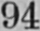94
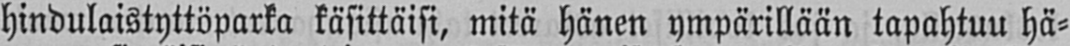hindulaistyttöparka käsittäisi, mitä hänen ympärillään tapahtuu hä-
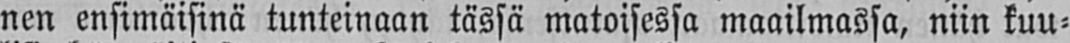nen ensimäisinä tunteinaan tässä matoisessa maailmassa, niin kuu-
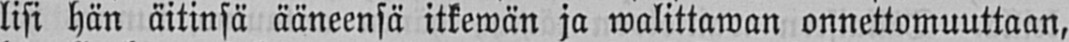lisi hän äitinsä ääneensä itkewän ja walittawan onnettomuuttaan,
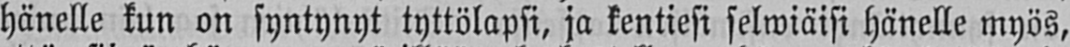hänelle kun on syntynyt tyttölapsi, ja kentiesi selwiäisi hänelle myös,
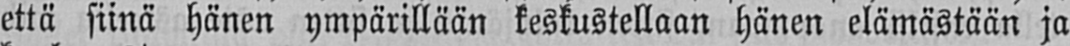että siinä hänen ympärillään keskustellaan hänen elämästään ja
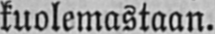kuolemastaan.
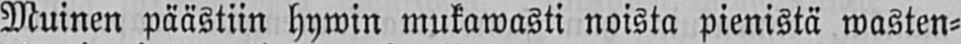Muinen päästiin hywin mukawasti noista pienistä wasten-
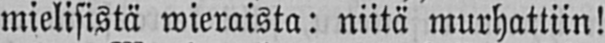mielisistä wieraista: niitä murhattiin!
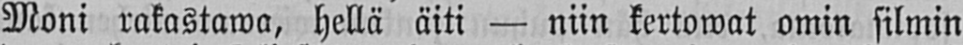Moni rakastawa, hellä äiti — niin kertowat omin silmin
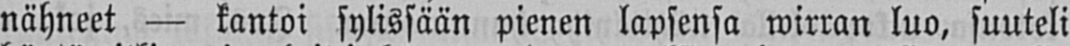nähneet — kantoi sylissään pienen lapsensa wirran luo, suuteli
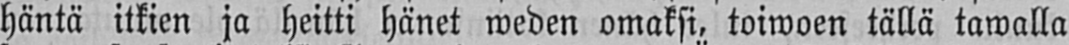häntä itkien ja heitti hänet weden omaksi, toiwoen tällä tawalla
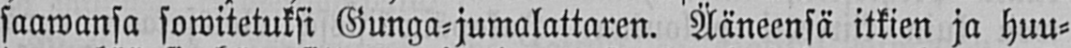saawansa sowitetuksi Gunga-jumalattaren. Ääneensä itkien ja huu-
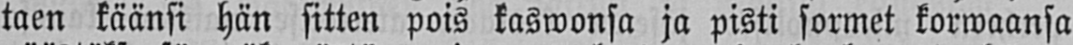taen käänsi hän sitten pois kaswonsa ja pisti sormet korwaansa
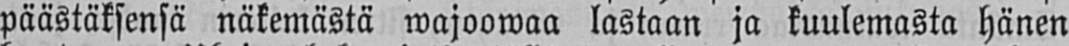päästäksensä näkemästä wajoowaa lastaan ja kuulemasta hänen
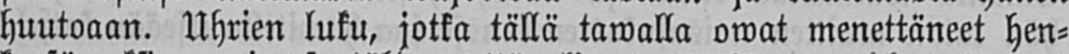huutoaan. Uhrien luku, jotka tällä tawalla owat menettäneet hen-
